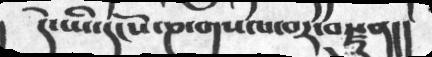དེ་ཡི་དངོས་ཎ་གསལ་བར་བསྫུན།།
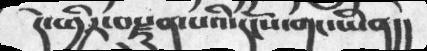དེ་ཕྱིར་བསྫུན་པའི་དངོས་གང་ཡིན།།
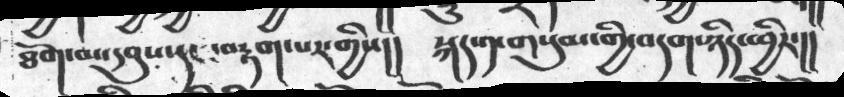ཐོག་མར་དབུས་དང་བརྟག་པར་གྱིས།།   སྐད་༡་གསུམ་གྱི་བདག་ཉིད་ཕྱིར་།།
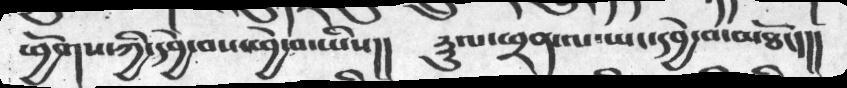ཕྱོགས་ཀྱི་དབྱེ་བས་ཕྱེ་བ་ཡིན།།    རྡུལ་ཕྲན་ལ་ཡང་དབྱེ་བ་མཐོང།།
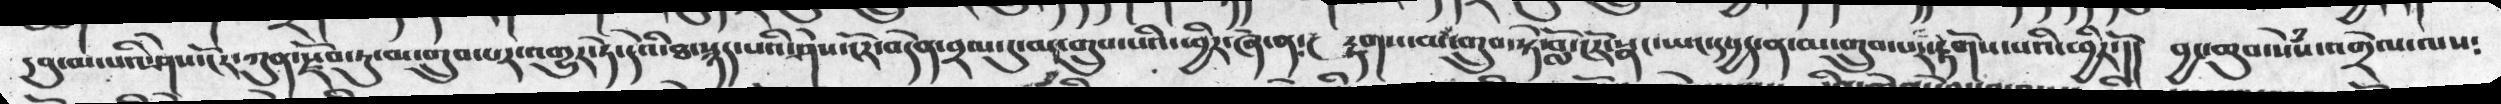དབུ་མ་པའི་ཤེས་ངོར་ཀུན་སྫོབ་ཏུ་མ་གྲུབ་པར་འགྱུར་ཏེ་དེའི་ཐ་སྙད་པའི་ཤེས་ངོར་བདེན་བྲལ་དུ་མ་གྲུབ་པའི་ཕྱིར་ཞེ་ན་།   རྟག་མ་གྲུབ་སྟེ་བློ་ངོར་སྣང་ཡང་དཔྱད་ན་མ་གྲུབ་པར་རྟོག་པའི་ཕྱིརོ་།།     བྱང་ཆུབ་སེྃས་འགྲེལ་ལས༴
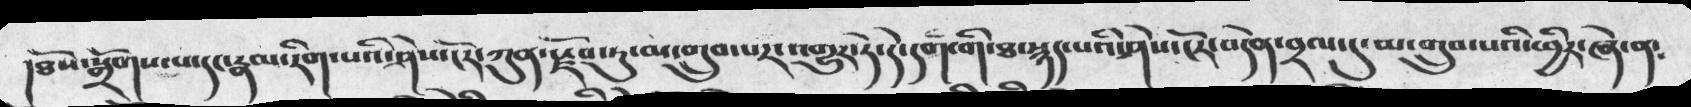།ཐོས་སྒྲོགས་པ་དང་རྣམ་རིག་པའི་ཤེས་ངོར་ཀུན་སྫོབ་ཏུ་མ་གྲུབ་པར་འགྱུར་ཏེ་དེ་དག་གི་ཐ་སྙད་པའི་ཤེས་ངོར་བདེན་བྲལ་དུ་མ་གྲུབ་པའི་ཕྱིར་ཞེ་ན༴
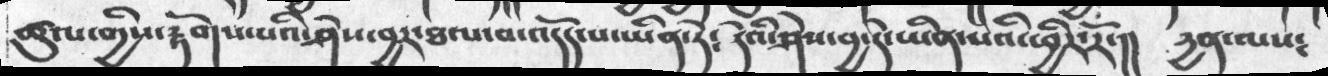ཚུལ་གྱིས་རྟོགས་པའི་ཤེས་བྱར་ཐལ་བ་འདོད་པ་ཡིན་ཏེ༴   དེའི་ཤེས་བྱ་དེ་ཡིན་པའི་ཕྱིར་རོ་།།  དྱན་ལས༴
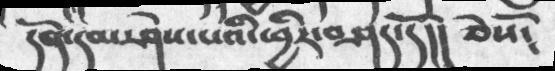དོན་དམ་ཤེས་པའི་ཕྱིར་བཤད་དོ།།     ཅེསོ༴
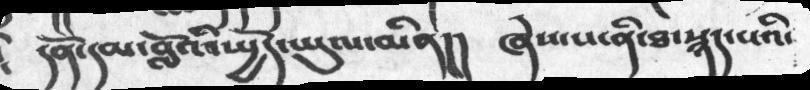དོན་དམ་བློའི་སྤྱོད་ཡུལ་མིན།།   ཞེས་པ་ནི་ཐ་སྙད་པའི་
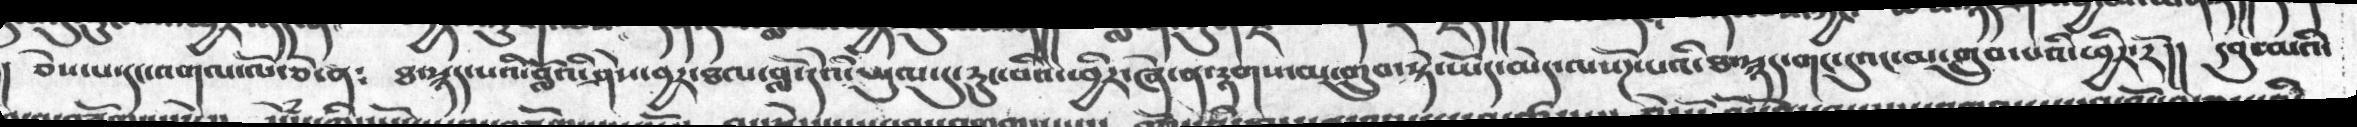ཅེས་པ་དང་འགལ་ལོ་ཅེ་ན༴   ཐ་སྙད་པའི་བློའི་ཤེས་བྱར་ཐལ་བློ་དེའི་ཡུལ་དུ་རུང་བའི་ཕྱིར་ཞེས་ན་རྟགས་མ་གྲུབ་སྟེ་ཡོད་མེད་ལ་སོཌ་པའི་ཐ་སྙད་གང་དུའང་མ་གྲུབ་པའི་ཕྱིར་རོ།།   དབུ་མའི་
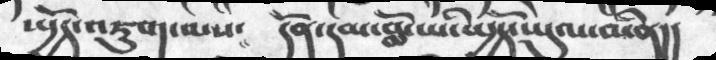སྤྱོད་འཇུག་ལས་   དོན་དམ་བློ་ཡི་ཡྱོད་ཡུལ་མིན།།
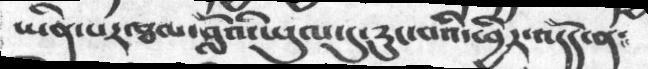ཡིན་པར་ཐལ་བློའི་ཡུལ་དུ་རུང་བའི་ཕྱིར་འདོད་ན་
